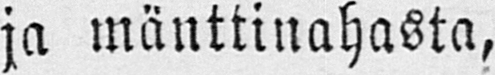ja mänttinahasta,
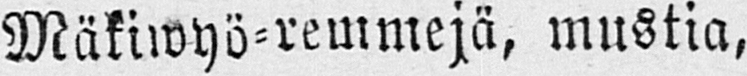Mäkiwyö-remmejä, mustia,
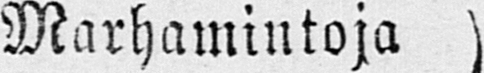Marhamintoja
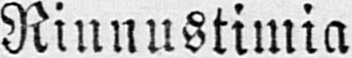Rinnustimia
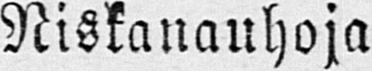Niskanauhoja
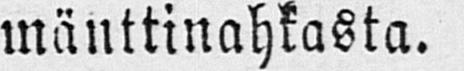mänttinahkasta.
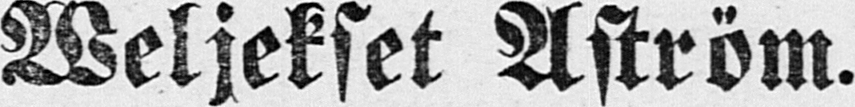Weljekset Åström.
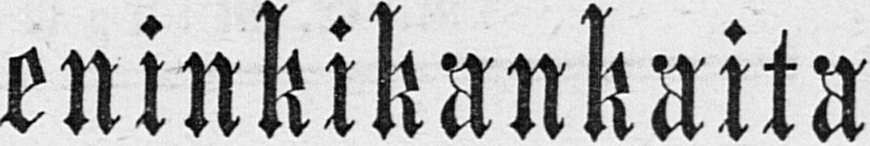Leninkikankaita
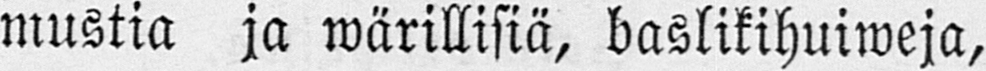mustia ja wärillisiä, baslikihuiweja,
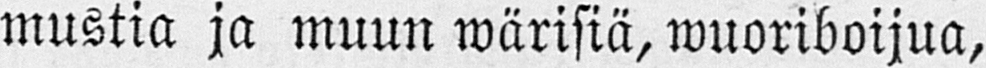mustia ja muun wärisiä, wuoriboijua,
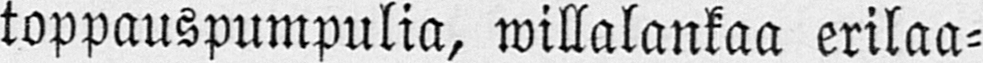toppauspumpulia, willalankaa erilaa-
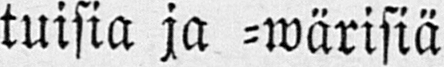tuisia ja -wärisiä
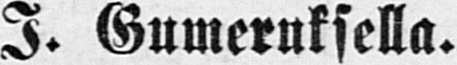I. Gumeruksella.
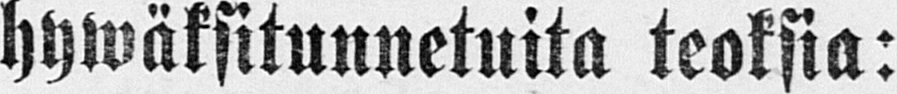hywäksitunnetuita teoksia:
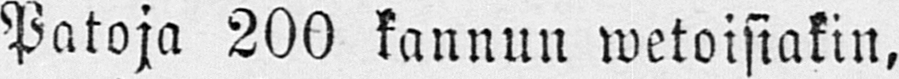Patoja 200 kannun metoisiakin,
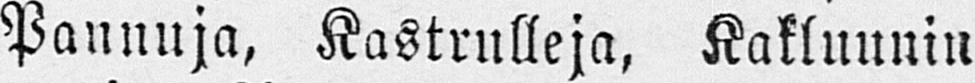Pannuja, Kastrnlleja, Kakluunin
